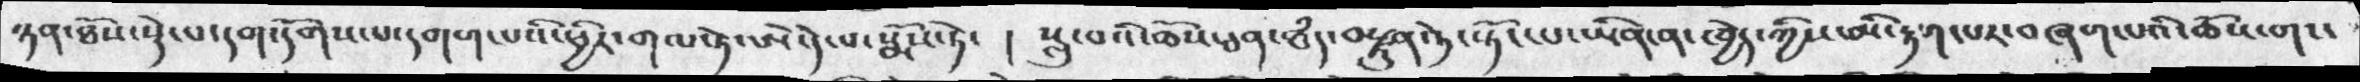ཉན་ཐོས་སྡེ་པ་དག་དོགས་པ་དགག་པའི་ཕྱིར་གལ་ཏེ་ཨེ་དེ་པ་སྨོས་ཏེ་ ། སླུ་བའི་ཆོས་ཅན་ཐཾད་བརྫུན་ཏེ་སྟོང་པ་ཡིན་ན་ཁྱེད་ཀྱིས་མི་རྟག་པར་བཞག་པའི་ཆོས་གང་
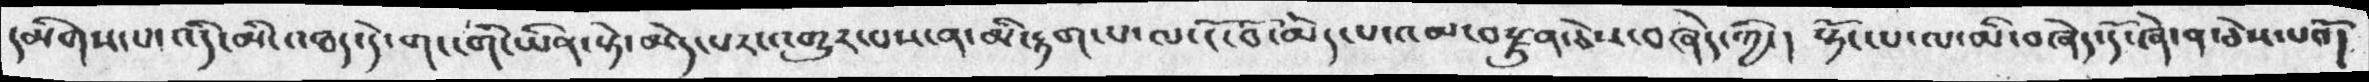དམིགས་པ་འདི་མི་འཐད་དེ་གང་གི་ཡིན་སྟེ་མེད་པར་འགྱུར་པས་ན་མི་རྟག་པ་ལ་ངོ་བོ་མེད་པ་འམ་བརྫུན་ཅེས་བཞེད་ཀྱི་། སྟོང་པ་ལ་མི་བཞེད་དོ་ཞེ་ན་ཅེས་པའོ།
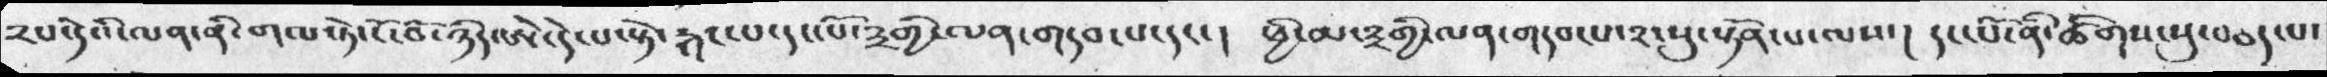༢པ་དེའི་ལན་ནི་གལ་ཏེ་ངོ་བོ་ཉིད་ཨེ་དེ་པ་སྟེ་རྐང་པ་དང་པོ་༣གྱི་ལན་གདབ་པ་དང་།  ཕྱི་མ་༣གྱི་ལན་གདབ་པ་༢་སུ་སྟོན་པ་ལས་། དང་པོ་ནི་ཚིགས་སུ་བཅད་པ་
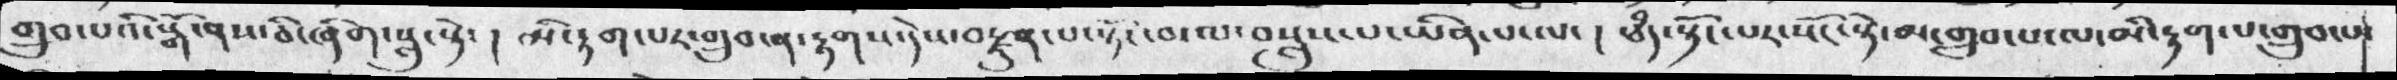གྲུབ་པའི་སྒོ་ནས་ཅི་ཞིག་སླུ་སྟེ་། མི་རྟག་པར་གྲུབ་ན་རྟགས་དེས་བརྫུན་པ་སྟོང་བ་ལ་བསླུས་པ་ཡིན་པ་ལ་། ཐཾད་སྟོང་པར་སོང་སྟེ་མ་གྲུབ་པ་ལ་མི་རྟག་པ་གྲུབ་པ་
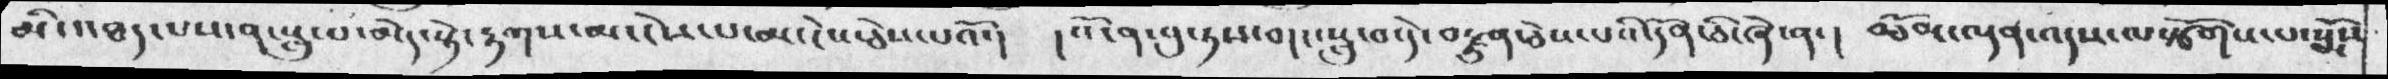མི་འཐད་པས་ན་སླུ་པ་མེད་སྟེ་རྟགས་མ་ངེས་པ་མ་ངེས་ཅེས་པའོ་།  ། འོ་ན་བུ་ཏས་གང་སླུ་བ་དེ་བསྫུན་ཅེས་པའི་དོན་ཅི་ཞེ་ན་།  བཅོམ་ལྡན་འདས་ལསྩོགས་པ་སྨོས
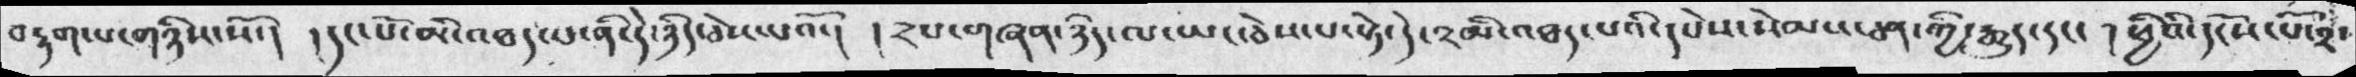བརྟག་པ་གཉིས་སོ་།  །དང་པོ་མི་འཐད་པ་ནི་དེ་ཉིད་ཅེས་པའོ་།  །༢པ་གཞན་ཉིད་ལ་ཡང་ཅེས་པ་སྟེ་དེ་༢མི་འཐད་པའི་དཔེས་སེམས་ཅན་ཀྱི་རྒུད་དང་ ། ཕྱིའི་དངོས་པོ་༢་
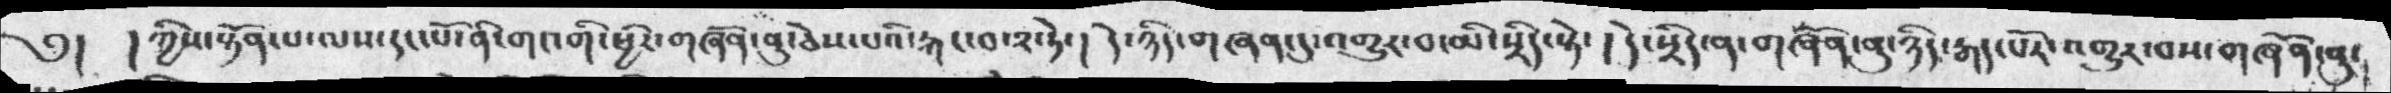༄།  ། ཀྱིས་སྟོན་པ་ལས་དང་པོ་ནི་གང་གི་ཕྱིར་གཞོན་ནུ་ཅེས་པའི་རྐང་བ་༢་ཏེ་།  དེ་ཉིད་གཞན་དུ་འགྱུར་བ་མི་སྲིད་སྟེ་ །  དེ་སྲིད་ན་གཞོན་ནུ་ཉིད་རྒད་པོར་འགྱུར་བས་གཞོན་ནུ་
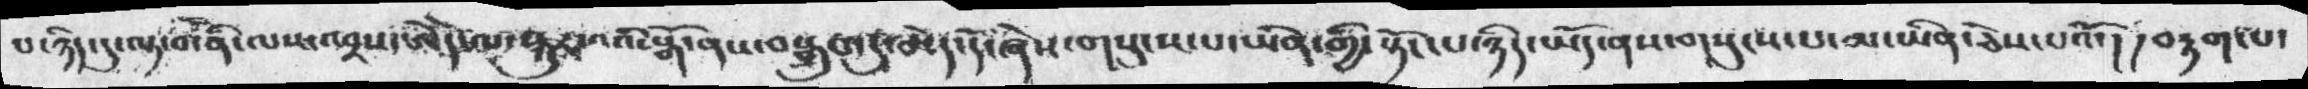པ་ཉིད་དུ་ལྟ་བ་ནི་ལས་འབྲས་ཨེ་དེ་ལ་སྐུར་བའི་སྒོ་ནས་བསྒྲུབ་དུ་མེད་དོ་ཞེས་གསུངས་པ་ཡིན་གྱི་སྟོང་པ་ཉིད་ཡོད་ནས་གསུངས་པ་མ་ཡིན་ཅེས་པའོ་། ། བརྟག་པ་
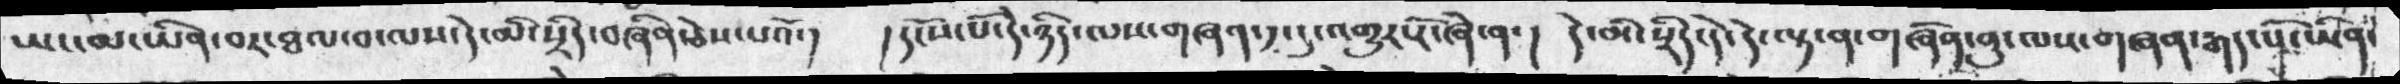ཡང་མ་ཡིན་བར་ཐལ་བ་ལས་དེ་མི་སྲིད་བཞིན་ཅེས་པའོ་། །དངོས་པོ་དེ་ཉིད་ལས་གཞན་༡་དུ་འགྱུར་རོ་ཞེ་ན་། དེ་མི་སྲིད་དེ་དེ་ལྟ་ན་གཞོན་ནུ་ལས་གཞན་རྒད་པོ་ཡིན་
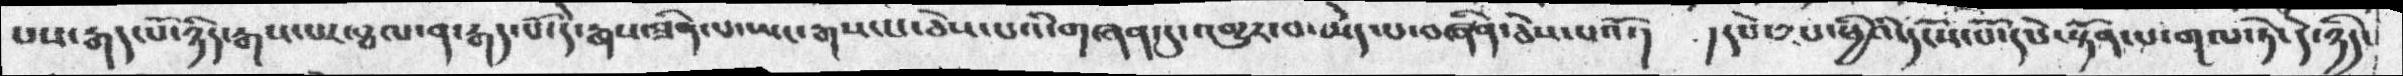པས་རྒད་པོ་ཉིད་རྒས་པར་ཐལ་ན་རྒད་པོ་དེ་རྒས་ཟིན་པ་ཡང་རྒས་པ་ཅེས་པའི་གཞན་དུ་འགྱུར་བ་མེད་པ་བཞིན་ཅེས་པའོ་།  །དཔེ་༢པ་ཕྱིའི་དངོས་པོ་དཔེ་སྟོན་པ་གལ་ཏེ་དེ་ཉིད་
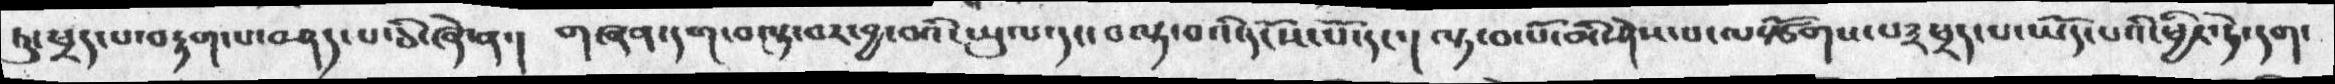དུ་ཕྲད་པ་བརྟག་པ་བཤད་པ་ཅི་ཞེ་ན་།  གཞན་དག་བལྟ་བར་བྱ་བའི་ཡུལ་དང་བལྟ་བའི་དངོས་པོ་དང་། ལྟ་བ་པོ་མི་ཤེས་པ་ལསྩོགས་པ༣ཕྲད་པ་ཡོད་པའི་ཕྱིར་དེ་དག་
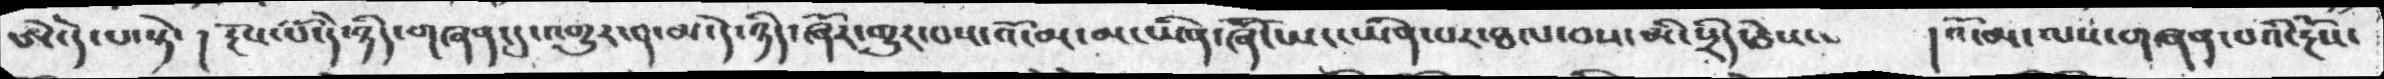ཨེ་དེ་པ་སྟེ་ ། རྔོས་པོ་དེ་ཉིད་གཞན་དུ་འགྱུར་བ་མ་དེ་ཉིད་ཞོར་གྱུར་བས་འོ་མ་མ་ཡིན་ཞོ་ཡང་ཡིན་པར་ཐལ་བས་མི་སྲིད་ཅེས་ །འོ་མ་ལས་གཞན་པའི་རྔོས་
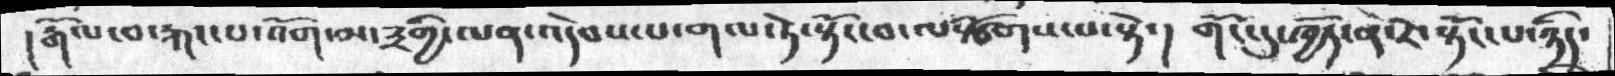།རྒོལ་བ་རྐང་པ་འོག་མ་༣གྱི་ལན་འདེབས་པ་གལ་ཏེ་སྟོང་བ་ལསྩོགས་པ་སྟེ་། གོང་དུ་ཁྱོད་ན་རེ་སྟོང་པ་ཉིད་
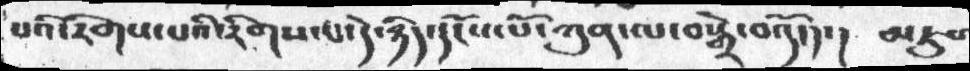པའི་རིགས་པའི་རིགས་པ་དེ་ཉིད་དངོས་པོ་ཀུན་ལ་བསྒྲེ་བའོ་ད་། མཇུག
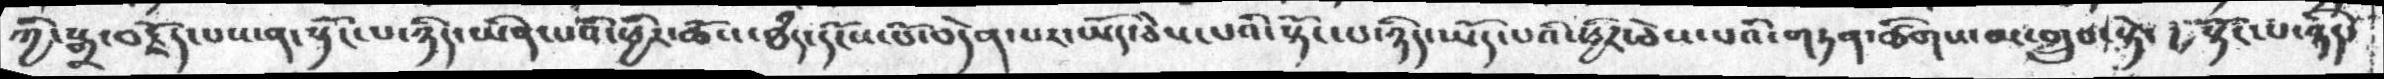ཀྱི་སྒྲ་བརྗོད་པས་ན་སྟོང་པ་ཉིད་ཡིན་པའི་ཕྱིར་ཆོས་ཐཾད་དངོས་པོ་བདེན་པར་ཡོད་ཅེས་པའི་སྟོང་པ་ཉིད་ཡོད་པའི་ཕྱིར་ཅེས་པའི་གཏན་ཚིགས་མ་གྲུབ་སྟེ་། སྟོང་པ་ཉིད་
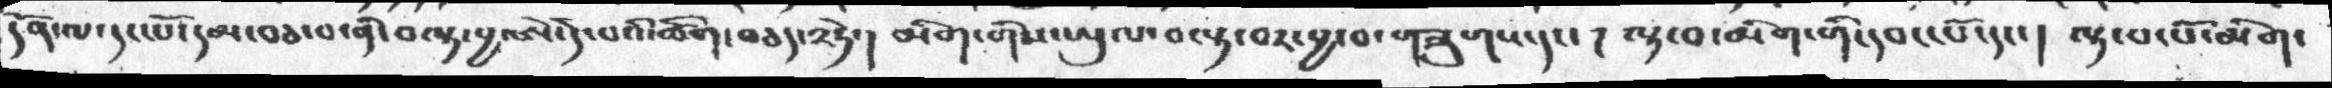དོན་ལ་དང་པོ་དམ་བཅ་པ་ནི་བལྟ་བྱ་ཨེ་དེ་པའི་ཚིག་བཅད་༢ཏེ་།   མིག་གིས་ཡུལ་བལྟ་བར་བྱ་བ་གཟུགས་དང་།  ལྟ་བ་མིག་གི་དབང་པོ་དང་།  ལྟ་པ་པོ་མིག་
